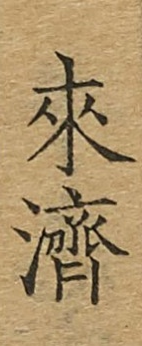來濟
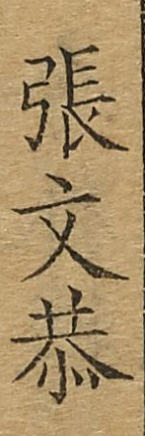張文恭
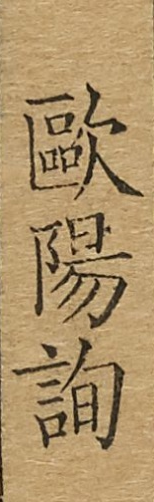歐陽詢
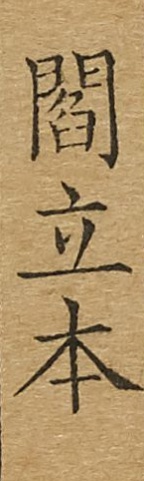閻立本
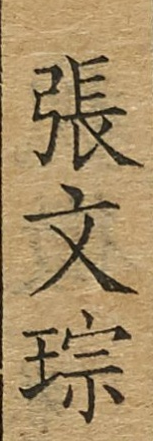張文琮
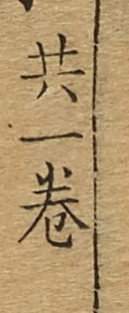共一卷
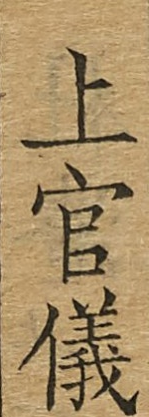上官儀
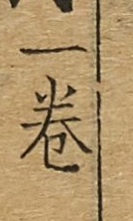一卷
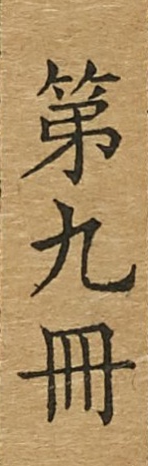第九冊
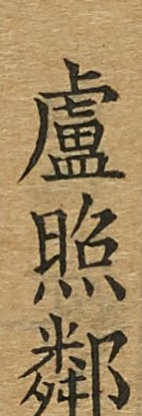盧照鄰
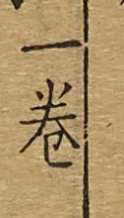一卷
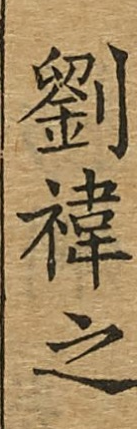劉禕之
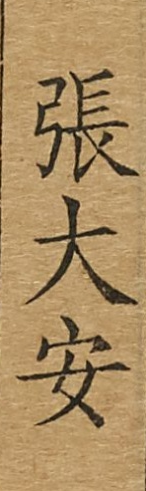張大安
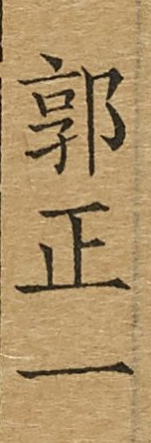郭正一
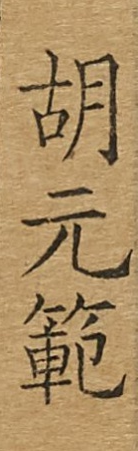胡元範
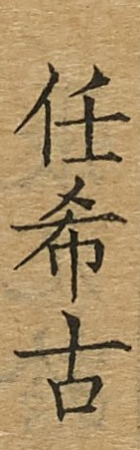任希古
